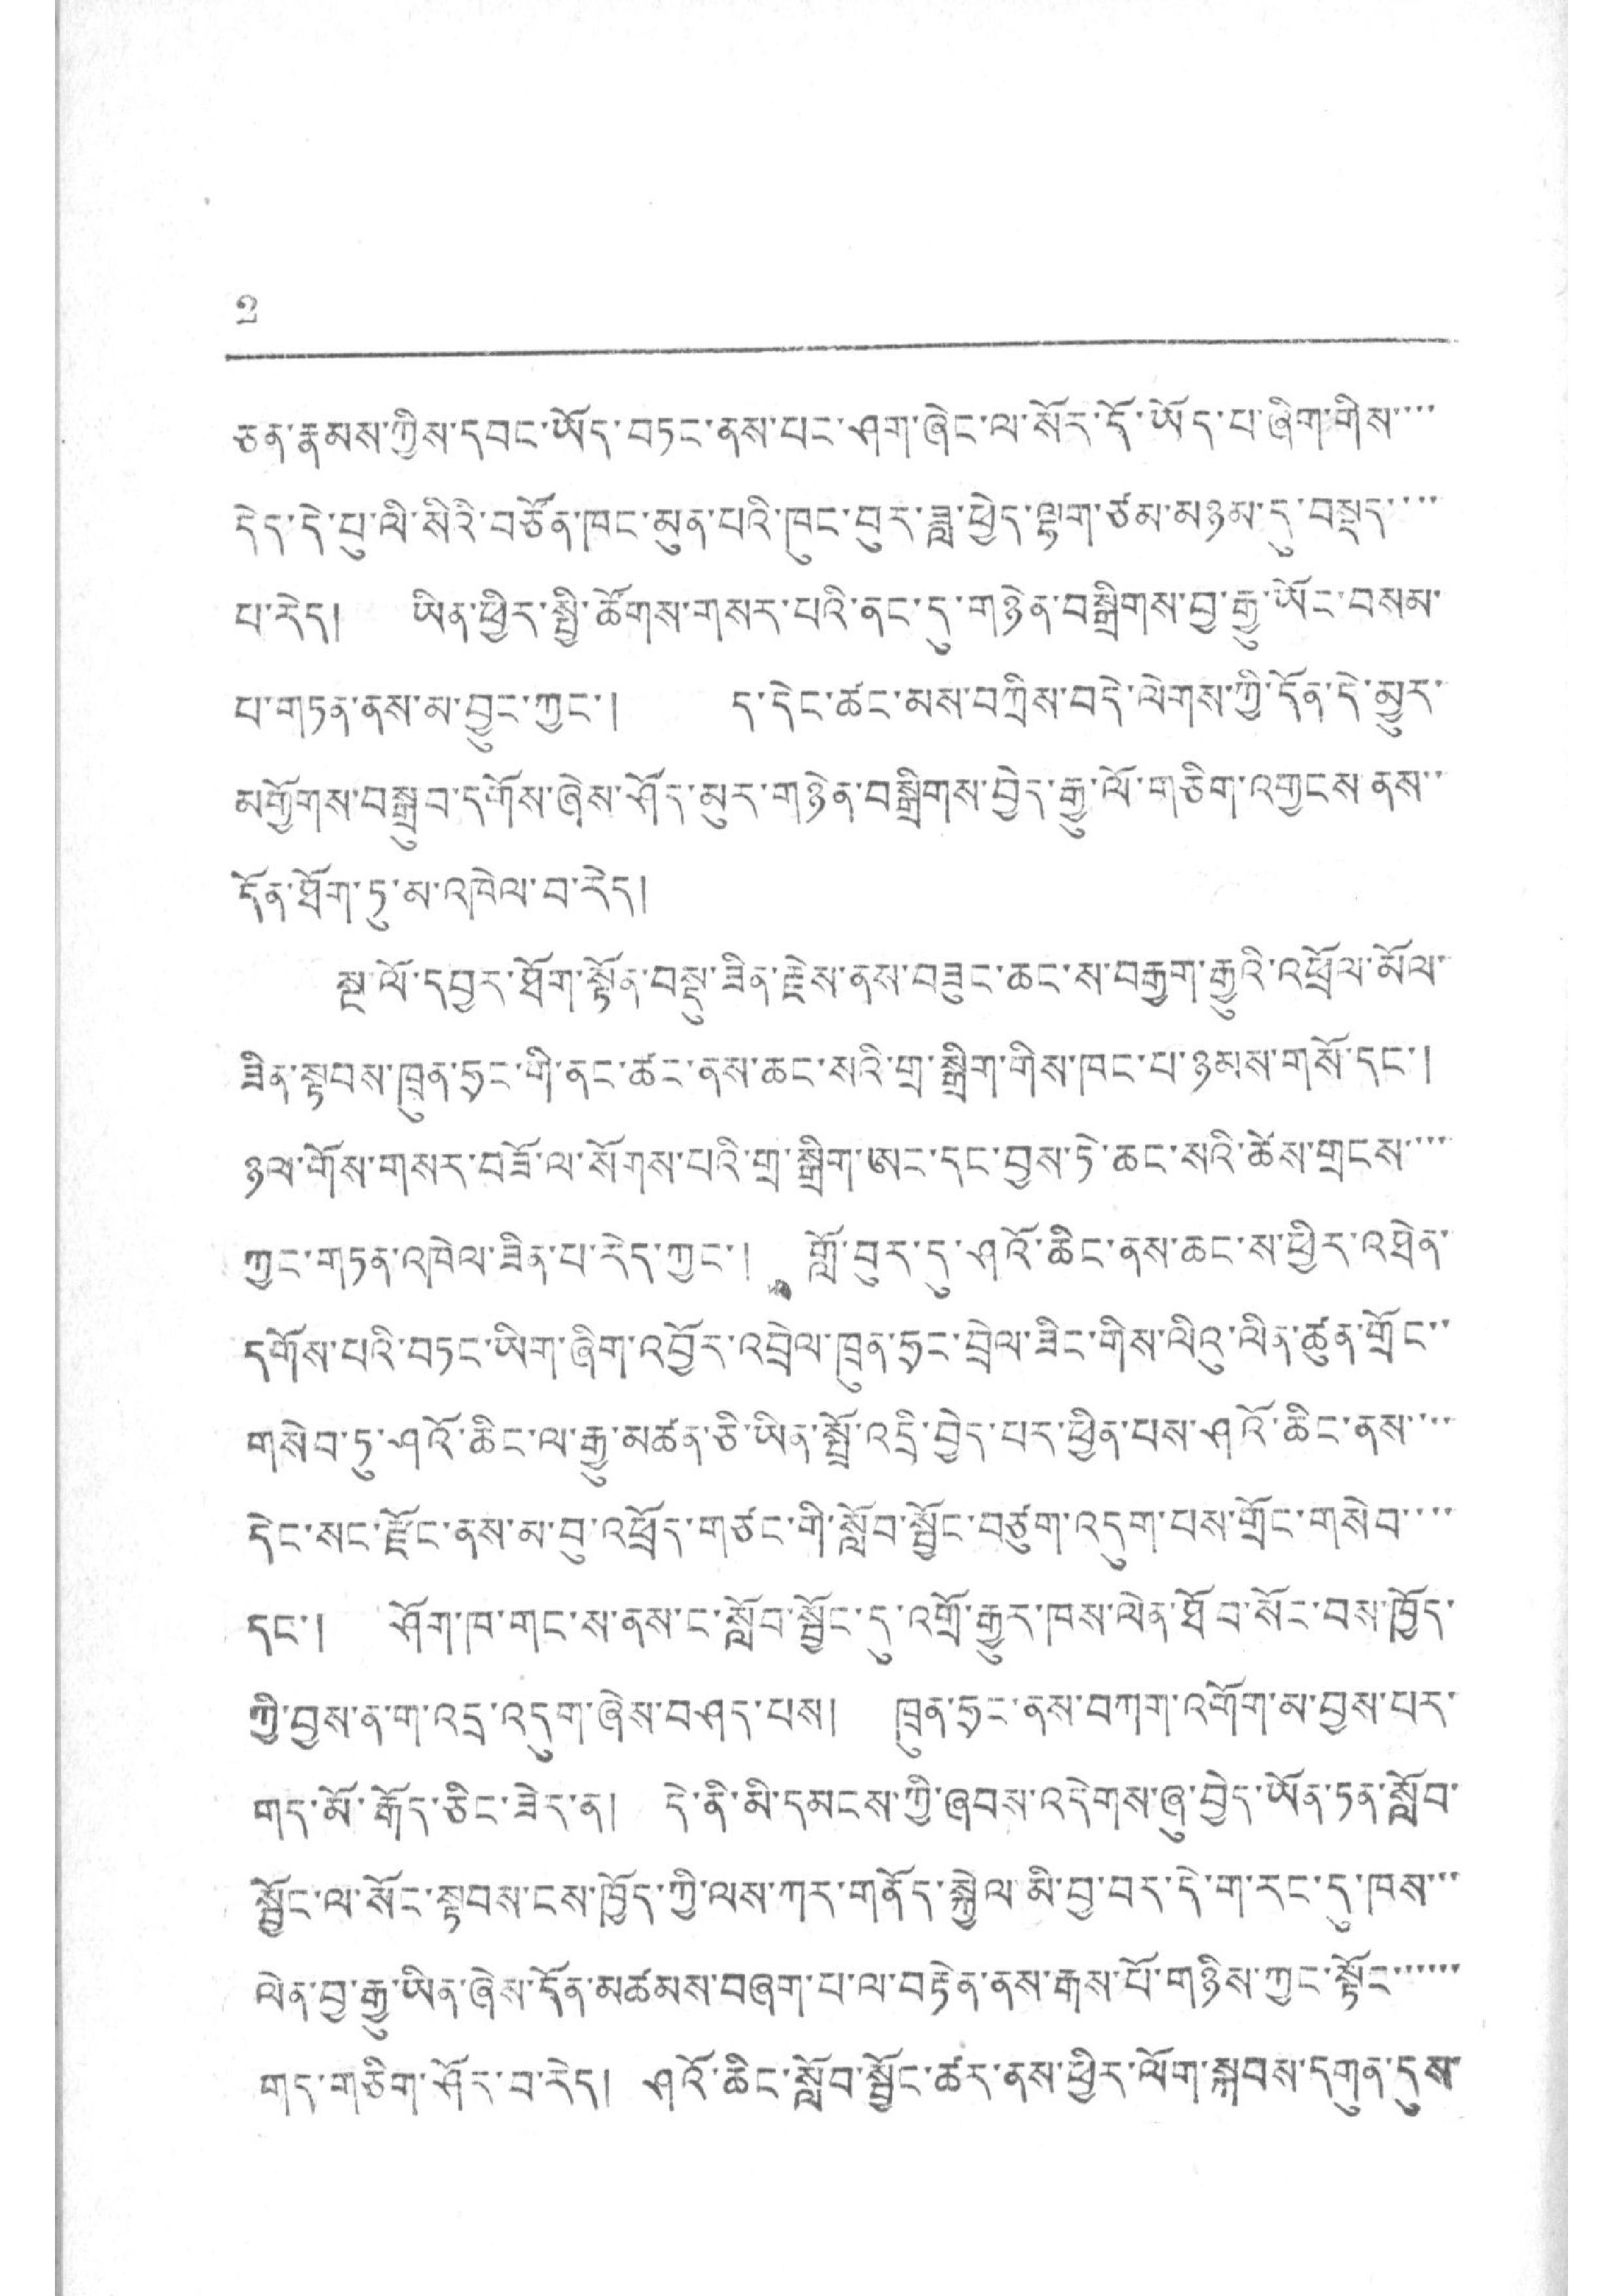2
ཅན་རྣམས་ཀྱིས་དབང་ཡོད་བཏང་ནས་པར་ཤག་ཞེང་ལ་སོར་དོ་ཡོད་པ་ཞིག་གིས་་་་
དེད་དེ་པ་ལི་སིའི་བཙོན་ཁང་མུན་པའི་ཁུང་བུར་ཟླ་ཕྱེད་ལྷག་ཙམ་མཉམ་དུ་བསྡད་་་་
པ་རེད། ཡིན་ཕྱིར་སྤྱི་ཚོགས་གསར་པའི་ནང་དུ་གཉེན་བསྒྲིགས་བྱ་རྒྱུ་ཡོང་བསམ་
པ་གཏན་ནས་མ་བྱུར་ཀྱང་། ད་དེང་ཚང་མས་བཀྲིས་བདེ་ལེགས་ཀྱི་དོན་དེ་མྱུར་
མགྱོགས་བསྒྲུབ་དགོས་ཞེས་ཤོད་མུར་གཉེན་བསྒྲིགས་བྱེད་རྒྱུ་ལོ་གཅིག་འགྱངས་ནས་་
དོན་ཐོག་ཏུ་མ་འཁེལ་བ་རེད།
སྔ་ལོ་དབྱར་ཐོག་སྟོན་བསྡུ་ཟིན་རྗེས་ནས་བཟུང་ཆང་ས་བརྒྱག་རྒྱུའི་འཕྲོལ་མོལ་
ཟིན་སྟབས་ཁྲུན་ཧྲང་གི་ནང་ཚང་ནས་ཆང་སའི་གྲ་སྒྲིག་གིས་ཁང་པ་ཉམས་གསོ་དང་།
ཉལ་གོས་གསར་བཟོ་ལ་སོགས་པའི་གྲ་སྒྲིག་ཨང་དང་བྱས་ཏེ་ཆང་སའི་ཚེས་གྲངས་་་་་
ཀྱང་གཏན་འཁེལ་ཟིན་པ་རེད་ཀྱང་། ཀློ་བུར་དུ་ཤའོ་ཆིང་ནས་ཆང་ས་ཕྱིར་འཐེན་
དགོས་པའི་བཏང་ཡིག་ཞིག་འབྱོར་འབྲེལ་ཁྲུན་ཧྲང་བྲེལ་ཟིང་གིས་ལིའུ་ལིན་ཚུན་གྲོང་་
གསེབ་ཏུ་ཤའོ་ཆིང་ལ་རྒྱུ་མཚན་ཅི་ཡིན་སྤྲོ་འདྲི་བྱེད་པར་ཕྱིན་པས་ཤའོ་ཆིང་ནས་་་་
དེང་སང་རྫོང་ནས་མ་བུ་འཕྲོད་གཙང་གི་སློབ་སྦྱོང་བཙུག་འདུག་པས་གྲོང་གསེབ་་་་
དང་། ཤོག་ཁ་གང་ས་ནས་ང་སློབ་སྦྱོང་དུ་འགྲོ་རྒྱུར་ཁས་ལེན་ཐོབ་སོང་བྱས་ཁྱོད་
ཀྱི་བྱས་ན་ག་འདྲ་འདུག་ཞེས་བཤད་པས། ཁྲུན་ཧྲང་ནས་བཀག་འགོག་མ་བྱས་པར་
གད་མོ་རྒོར་ཅིང་ཟེར་ན། དེ་ནི་མི་དམངས་ཀྱི་ཞབས་འདེགས་ཞུ་བྱེད་ཡོན་ཏན་སློབ་
སྦྱོང་ལ་སོང་སྟབས་ངས་ཁྱོད་ཀྱི་ལས་ཀར་གནོད་སྐྱེལ་མི་བྱ་བར་དེ་ག་དང་དུ་ཁས་་་
ལེན་བྱ་རྒྱ་ཡིན་ཞེས་དོན་མཚམས་བཞག་པ་ལ་བརྟེན་ནས་རྒས་པོ་གཉིས་ཀྱང་སྟོང་་་་་་
གད་གཅིག་ཤོར་བ་རེད། ཤའོ་ཆིང་སློབ་སྦྱོང་ཚར་ནས་ཕྱིར་ལོག་སྐབས་དགུན་དུས་
